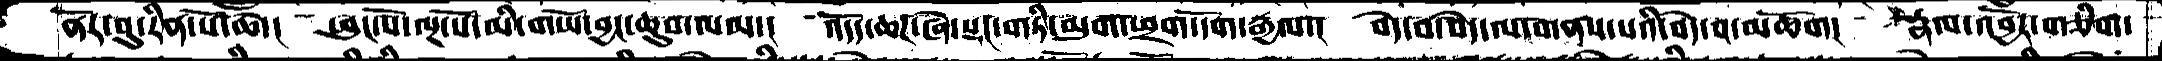ནོར་བུ་རིན་པོ་ཆེ་།  ཕུང་པོ་ལྔ་པོ་མི་གཡོ་བྱང་ཆུབ་ལམ་།  འོདད་ཆཌ་ཞེ་སྡང་གཏི་མུག་ཕྲག་དོག་རྒྱལ་།   བདེ་བ་བདེ་ལ་གནས་པའི་བདེ་བ་མཆོག།   རྣལ་འབྱོར་གཅིག་
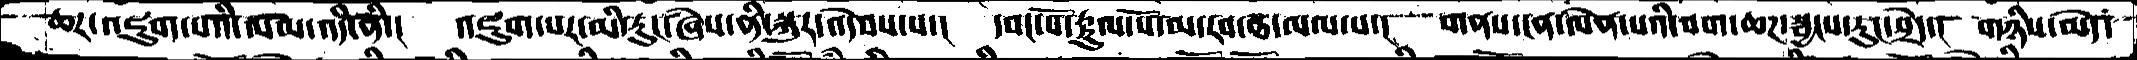ཆར་འཇུག་པའི་ལམ་འདི་ནི་།    འཇུག་པར་མི་རུང་ཞེས་ནི་སྐུར་འདེབས་པ་།  དབང་པོ་རྟུལ་པོ་ལ་རབ་ཐ་མལ་པ་།   གནས་ངན་ལེན་པའི་བག་ཆཌ་སྦྱངས་རུང་སྲེད་།  གཉིས་མེད་
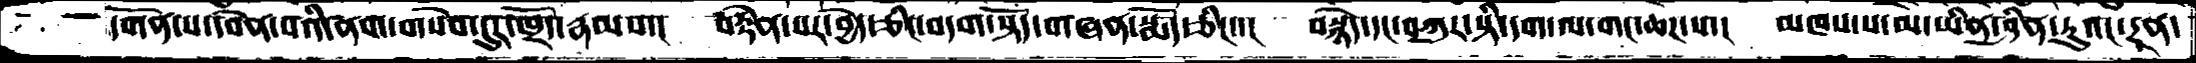དགོན་པ་དབེན་པའི་ནག་གསེབ་དུར་ཁྱོད་རྣམས་།  བརྟེན་པར་བྱེད་ཅིང་བདག་སྟོད་གཞན་སྨོད་ཅིང་་།  བསྙེད་དང་བཀུར་སྟི་དག་ལ་གང་ཆཌ་པ་།  མཁས་པ་མ་ཡིན་ཤིན་ཏུའང་དྲན་
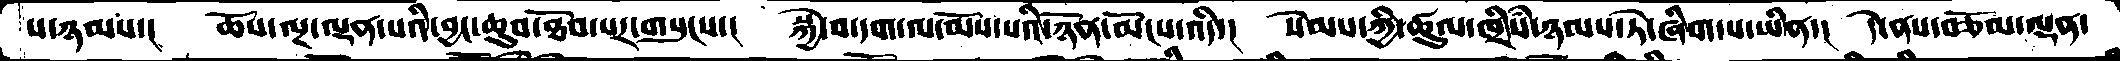པ་ཉམས་།   ཆོས་ལྔ་ལྡན་པའི་བྱང་ཆུབ་ཐོབ་པར་གསུངས་།   སྐྱེ་བ་དག་ལ་མོས་པའི་ཉོན་མོངས་འདི་།  སེམས་ཀྱི་ཚུལ་ཁྲིཾས་ཉམས་ཏེ་ཞིག་པ་ཡིན་།  དེ་ནས་བཅོམ་ལྡན་
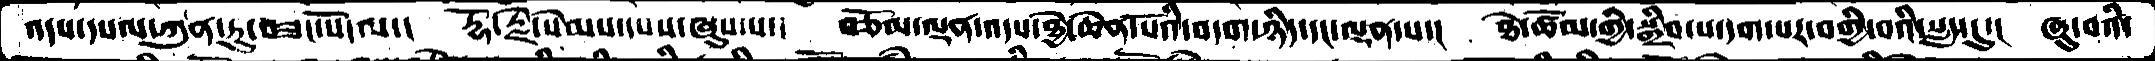འདས་དཔལ་ཀུན་ཏུ་བཟང་པོ་ལ་།   རྡོ་རྗེ་སེམས་དཔས་ཞུས་པ་།  བཅོམ་ལྡན་འདས་ཐྱེ་ཆེན་པོའི་བདག་ཉིད་དང་ལྡན་པ་།  ཐེ་ཚོམ་གྱི་སྒྲིབ་པ་དག་པར་བགྱི་བའི་སླད་དུ་།  ཞུ་བའི་
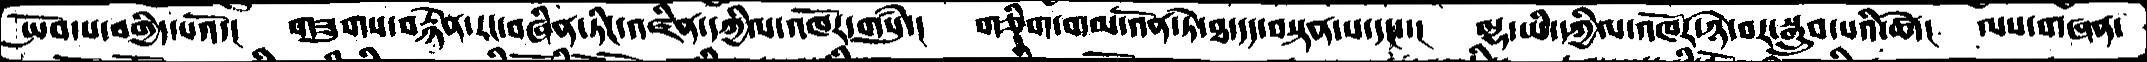སྤོབ་པ་བགྱིད་པའོ་།  གཟུགས་བརྙེན་རང་བཞིན་ཏིང་འཛིན་དཀྱིལ་འཁོར་གསུཾ་།  གཅིག་གམ་འོན་ཏེ་ཐ་དད་བསྟན་པ་དང་།  ལྷ་ཡི་དཀྱིལ་འཁོར་ཉེ་བར་སྒྲུབ་པའི་ཚེ་།  ལས་གཞན་
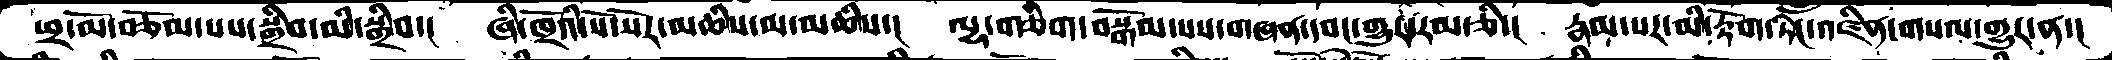ཕྲ་མོ་བཅོམ་པས་སྒྲིབ་མི་སྒྲིབ་།  ཞི་ཁྲོའི་སོ་སོར་མཆིས་མ་མཆིས་།  ལྷ་གཅིག་བསྒོམ་པས་གཞན་དབང་གྱུར་རམ་ཅི་།  རྣམ་པར་མི་རྟོག་ཏིང་འཛིན་གསལ་གྱུར་ན་།
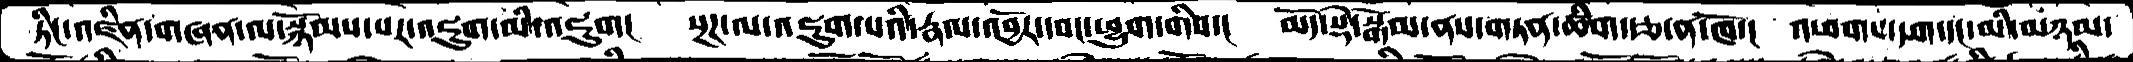ཏོང་འཛིན་གཞན་ལ་སྙོམས་པར་འཇུག་མི་འཇུག།  སྔཌ་ལ་འཇུག་པའི་རྣལ་འབྱོར་དབང་ཕྱུག་གིས་།  མདོ་སྡེ་སྒོམ་ནས་གཏན་ཚིག་རྩ་ན་ཁོ་།  འཕགས་དག་དང་མི་མཉམ་
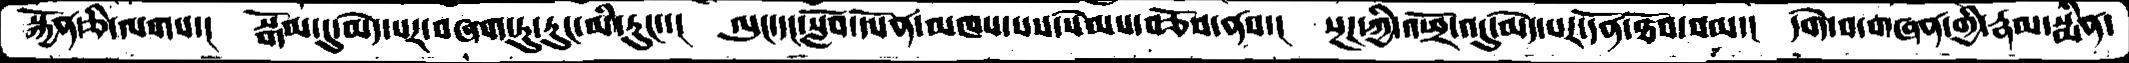སྐྱོན་ཅི་ལགས་།  སྒོམ་དུ་མེད་པར་བཞག་ཏུ་རུང་མི་རུང་་།  ལུང་དང་སློབ་དཔོན་མཁས་པས་སེམས་བཅོས་ནས་།  སྔཌ་ཀྱི་འཕྲོ་འདུ་མེད་པར་དོན་ཐོབ་བམ་།  དགེ་བ་གཞན་གྱི་རྣམ་སྨིན་
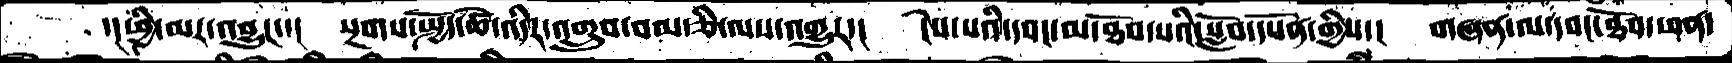་།ཕྱི་མར་འབྱུང་་།  སྔགས་སྤྱོད་ཚེ་འདིར་འགྲུབ་བམ་ཅི་ལས་འགྱུར་།  ངེས་པའི་དབང་མ་ཐོབ་པའི་སློབ་དཔོན་གྱིས་།  གཞན་ལ་དབང་ཐོབ་ཕན་
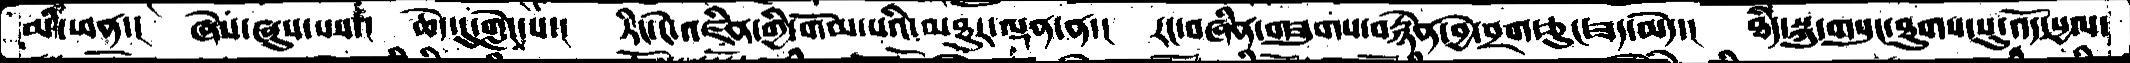མི་ཕན་།   ཞེས་ཞུས་པས་་།  ཆེད་དུ་གླེང་པ་།  ཏིང་ངེ་འཛིན་གྱི་གོམ་པའི་མཐུར་ལྡན་ན་།  རང་བཞིན་གཟུགས་བརྙེན་བྱེ་བྲག་ཅུང་ཟད་མེད་།  ཐཾད་སྐུ་གསུང་ཐུགས་སུ་འོད་སྱལ་
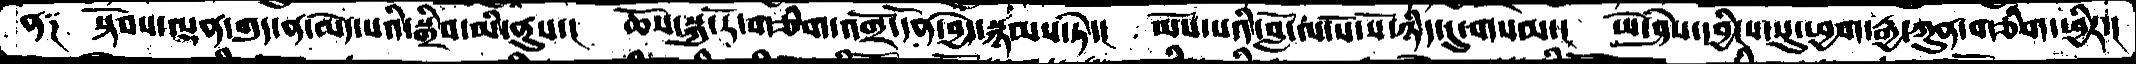ནᨐ སྟོབས་ལྡན་གུད་ན་མེད་པའི་སྒྲིབ་མི་ནུས་།  ཆོས་སྐུ་རོ་གཅིག་འགྲོ་དོན་བྱེད་སྙམས་ཏེ་།  མོས་པའི་བློ་ལ་སོ་སོ་ཉིད་དུ་གསལ་།  ཡེ་ཤེས་དབྱིངས་སུ་ཕྱག་རྒྱ་ཀུན་གཅིག་ཕྱིར་།
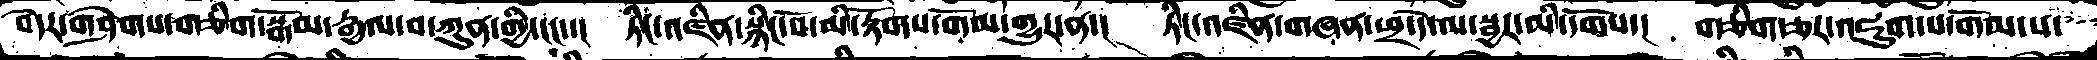བདེར་གཤེགས་གཅིག་སྒོམ་རྒྱལ་བ་ཀུན་གྱི་ངང་་།  ཏིང་འཛིན་སྙིང་པོ་མི་རྟོགས་གོམ་གྱུར་ན་།  ཏིང་འཛིན་གཞན་ཕྲ་དེ་ལ་སྦྱར་མི་དགོས་།  གཅིག་ཅར་འཇུག་པ་གོམ་པ་
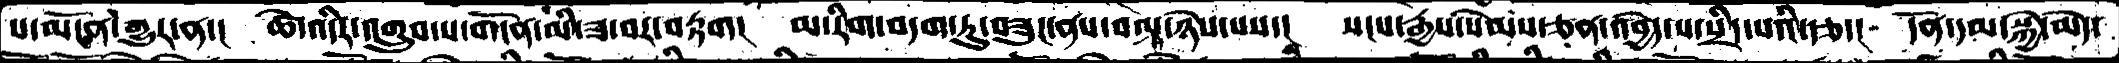པ་མངོན་གྱུར་ན་།  ཚེ་འདིར་འགྲུབ་པ་གདོན་མི་ཟ་བར་བརྟག།  མ་རིག་བདག་ཏུ་བཟུང་ནས་བལྟ་ཉེས་པས་།  སངས་རྒྱས་སེམས་ཅན་འབྱེད་པ་སྲིད་པའི་རྩ་།  དོན་དམ་སྐྱེ་མེད་
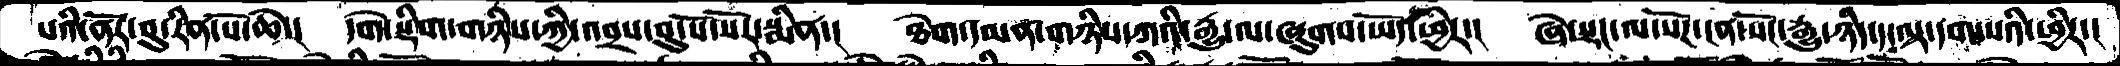པའི་ནོར་བུ་རིན་པོ་ཆེ་། དགེ་སྡིག་གཉིས་ཀྱི་འབྲས་བུ་སོ་སོར་སྨིན། ཐེག་དམན་གཉིས་ཀའི་རྒྱུ་ལ་ཞུགས་ཡོད་ཕྱིར་། ཞེ་སྡང་ལ་སོཌ་ངན་སོང་རྒྱུ་ཉིད་ད་ལྟ་དག་པའི་ཕྱིར་།
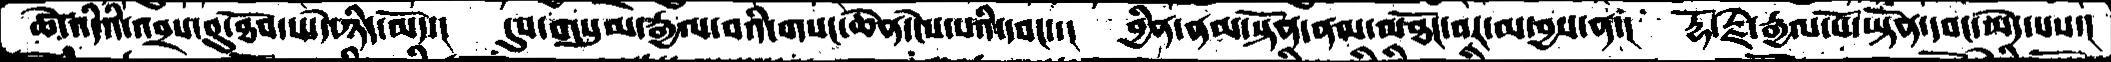ཚེ་འདིའི་འབྲས་བུ་ཐོབ་པ་དེ་ཉིད་མོད་།  དུས་གསུམ་རྒྱལ་བའི་གསང་ཆེན་ངེས་པའི་དབང་་།  བྱིན་ནམ་སྟོན་ནམ་མཐོང་བར་མ་བྱས་ན་།  རྡོ་རྗེ་རྒྱལ་པོ་ཡྟོན་དབང་མེད་པས་།
